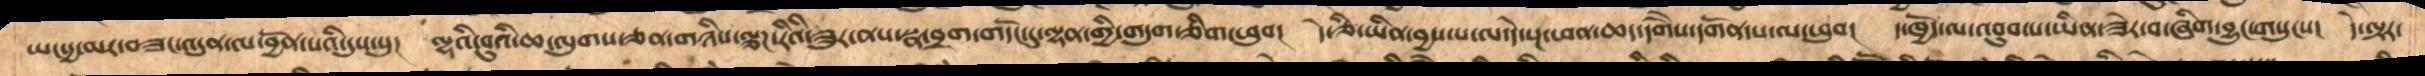ཡང་དྱ་མར་བཟང་འདུན་ལ་བྱོན་པའི་དུས་སུ།   ལྷའི་བུའི་ཆ་ལུགས་ཅན་གཉིས་ལྕཌ་རིའི་ཟུར་ནས་སྣ་བྲག་གདོང་དུ་ལྷན་གྱི་གདུག་ཅིག་ཕུབ།   དེ་ཅི་ཡིན་བྱས་པ་ལ་དེ་སྔ་ཕན་ཆད་དགཻས་དགོན་པ་ལ་ཕུབ།  ད་ཁྱོད་ལ་འབུབ་པ་ཡིན་ཟེར་བ་ཞིག་བྱུང་གསུངས།  དེ་ལྟར་
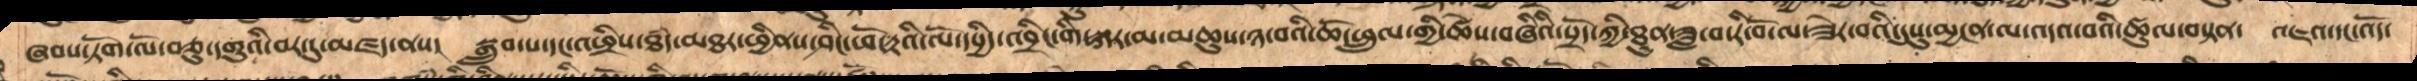ཞབས་ཏོག་ལོ་བཅུ་དགུའི་བར་དུ་མཛད་ནས།   སྒྲུབ་པ་དང་འཕྲིས་ཐཾད་མཐར་ཕྱིནས་ཤིང་ཕོ་རྟའི་ལོ་དཔྱིད་འབྲིང་སྐར་མ་མཆུས་ཉ་བའི་ཆོ་ཕྲུལ་གྱི་ཚེས་བཞིའི་སྲོད་ཀྱི་ཐུན་ཟླ་བ་རི་བོ་ལ་ཟེར་བའི་དུསུ་མྱ་ངན་ལ་འདའ་བའི་ཚུལ་བསྟན།  འཇའ་དང་འོད་
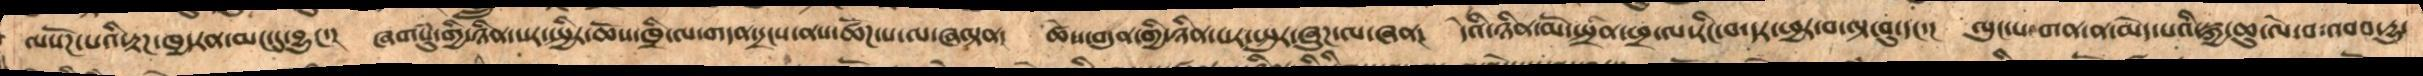ལསོཌ་པའི་རྟཌ་ཁྱདརན་མང་དུ་བྱུང་།  ཞགསུཾ་གྱི་ཉིན་སར་སྤྱིར་ཆོས་ཁྲི་ལ་གདན་དྲངས་ནས་ཚོཌ་པ་ལ་ཞལྟན།  ཚེས་བདུན་གྱི་ཉིན་པར་སྤུར་ཞུཌ་ལ་ཞན།  དེའི་ཉིན་མོ་སྤྲིན་ཕྲ་ལ་རིང་བ་དར་ཕྱར་བ་ལྟ་བུ་དང་།  ལུང་པ་གན་ན་མེད་པའི་སྐྱ་ཆུ་ལེ་བ་འབབ་དྱུ་
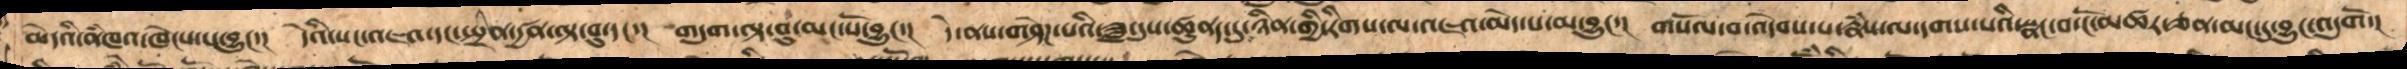མེདའི་ནཾམཁའ་ཁེངས་པ་བྱུང་།  དེའི་སང་འཇའ་དང་སྤྲིན་དྱཚན་ལྟ་བུ་དང་།  གདུག་ལྟ་བུ་མང་པོ་བྱུང་།   དེ་ནས་གཤེཌ་པའི་ཟླ་དུས་ཚུནད་དུ་ཉིན་གྱི་རིགས་ལ་འཇའ་མེད་པ་མ་བྱུང་།   གསོལ་བ་འདེབས་པ་རྣཾས་ལ་དག་པའི་སྣང་བ་ངོ་མཚར་ཅན་མང་དུ་བྱུང་འདུགོ་།
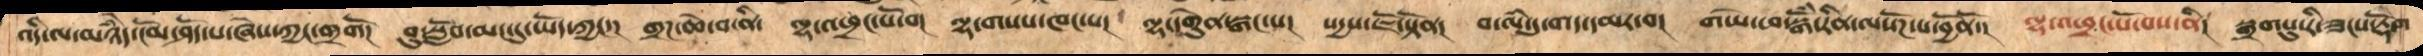འདི་ལ་མཉེཾད་ངོམ་ཤོད་པ་ཞེས་ཀྱང་གྲགོ།   བུ་སློབ་མང་དུ་ཡོད་ཀྱང་།  གྲཌ་ཆེ་བ་ནི།  ལྷ་འཕྲང་པོ་བ།  ལྷ་གསས་ཁང་པ།།   ལྷ་དགེུན་སྒང་པ།   སདྱས་ཇོ་སྟོན།   བ་ལཾ་དུ་གད་དམར་བ།   གཡོ་ཕ་སྒོཾ་རིན་ལསོཌ་པ་བྱོནོ་།   ལྷ་འཕྲང་པོ་བས་ནི།  སྒྲགསུ་རི་ཟངས་རྡོག
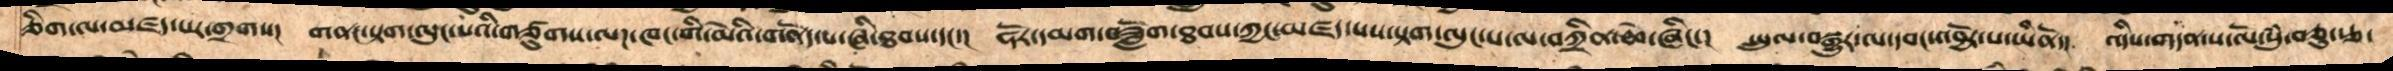ཅིག་ལ་མཛད་པར་གྲགས།  གནང་སྟག་ལུང་པའི་གཙུགས་ལཌ་ཁང་གི་མེའི་གནོད་པ་ཞི་ཐབས་དང་།  ཧོར་དམག་བཟློག་ཐབས་ཀྱང་མཛད་པས་སྟག་ལུང་པ་ལ་བཀྲིན་ཆེ་ཞིང་།  སྤྲུལ་བསྒྱུར་ལ་དབང་འབྱོར་པ་ཡིནོ་།  འདིས་གདན་ས་ལོ་སུཾ་བཅུ་རྩ་
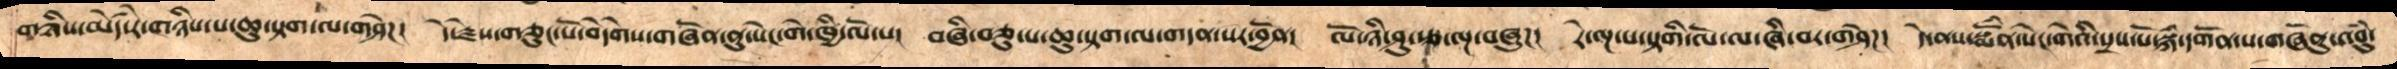གཉིས་མཛེད་རེ་གཉིས་པ་ཆུ་སྟག་ལ་གཤེཌ།  དེ་རྗེས་གཅུང་པོ་བདཻགས་གཞོན་ནུ་སེང་གེ་ཁྱི་ལོ་པ།  བཞི་བཅུ་པ་ཆུ་སྟག་ལ་གདན་སར་བྱོན།  ལོ་ཉི་ཤུ་རྩ་ལྔ་བཞུཌ།  རེ་ལྔ་པ་སྟགི་ལོ་ལ་ཞི་བར་གཤེཌ།  དེ་ནས་སྨོནཾ་སེང་གེའི་སྲས་པོ་སྐཾ་དགོན་པ་གཞོནུ་འབུཾ་
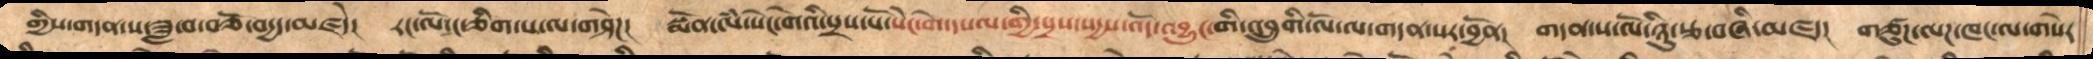གྱིས་གདན་ས་ཟླ་བ་བཅོ་བདྱད་མཛདེ།  རང་ལོ་ང་ཅིག་པ་ལ་གཤེཌ།  སྨོན་ལཾ་སེང་གེའི་སྲས་པོ་སེང་གེ་དཔལ་གྱི་སྲས་སདྱས་འོད་འབྱུང་གི་འབྲུགི་ལོ་ལ་གདན་སར་བྱོན།   གདན་ས་ལོ་ཉིུ་རྩ་བཞི་མཛད།   གཙུག་ལཌ་ཁང་ལ་གསེར
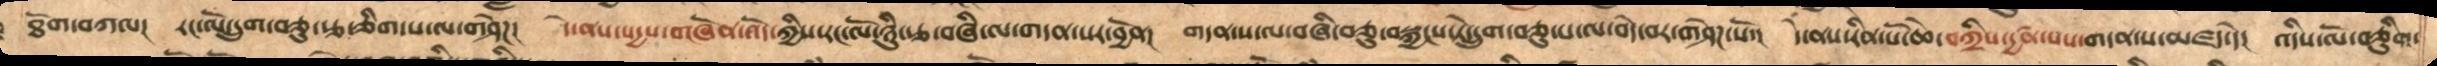ཐོག་བཀལ།  རང་ལོ་དྲུག་བཅུ་རྩ་ཅིག་པ་ལ་གཤེཌ།  དེ་ནས་སདྱས་གཞོན་འོད་ཀྱིས་རང་ལོ་ཉིུ་རྩ་བཞི་ལ་གདན་སར་བྱོན།  གདན་ས་ལོ་བཞི་བཅུ་བསྐྱངས་ཏེ་དྲུག་བཅུ་པ་ལ་གཤེཌ་སོ་།  དེ་ནས་རིན་པོ་ཆེ་བཀྲིས་དྱཚན་པས་གདན་ས་མཛད་དེ། འདིས་ལོ་གཅིུག་
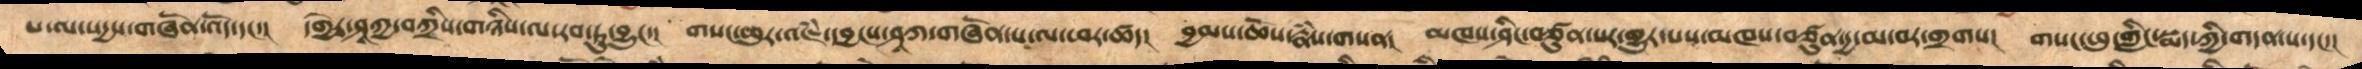པ་ལ་སདྱས་གཞོན་འོད་དང་།   དགྱེར་ཤཱཀྱ་བཀྲིས་གཉིས་ལ་རབ་ཏུ་བྱུང་།  གསང་ཕུར་འཇཾ་དབྱངས་ཤཱཀ་གཞོན་པ་ལ་ཕར་ཚད།  བྱམས་ཆོས་རྣཾས་གསན།   མཁས་ཤིང་བཙུན་པར་གྱུར་པས་མཁས་བཙུན་དྱ་མ་བར་གྲགས།  གསང་ཕུ་གླིང་སྨད་ཀྱི་གདན་ས་དང་།
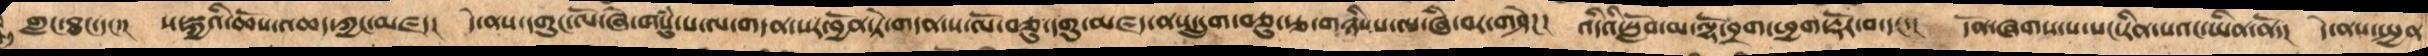གླང་ཐང་དང་།  ས་སྐྱའི་ཆོས་འཆད་ཀྱང་མཛད།  དེ་ནས་དགུང་ལོ་ཞེ་གསུཾ་པ་ལ་གདན་སར་བྱོན་ཏེ་གདན་ས་ལོ་བཅུ་དགུ་མཛད་ནས་དྲུག་བཅུ་རྩ་གཉིས་པ་ལ་ཞི་བར་གཤེཌ།  འདིའི་སློབ་མ་ལྷོ་བྲག་ཕྱག་རྡོར་བ་དང་།  དོན་ཞགས་པ་སང་རིན་པའང་ཡིན་ནོ། དེ་ནས་སྤྱན
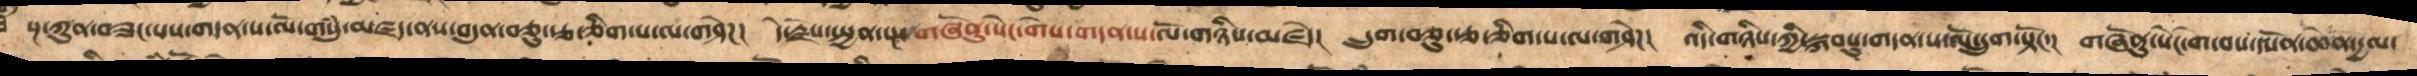སྔ་ཀུན་བཟང་པས་གདན་ས་ལོ་གསུཾ་མཛད་ནས་བདུན་ཅུ་རྩ་ཅིག་པ་ལ་གཤེཌ།།  དེ་རྗེས་སྤྱན་སྔ་གཞོནུ་སེང་གེས་གདན་ས་ལོ་གཉིས་མཛདེ།  དྲུག་བཅུ་རྩ་ཅིག་པ་ལ་གཤེཌ།  འདི་གཉིས་ཀྱི་སྐབསུ་གདན་ས་ལོ་དྲུག་སྟོང་།  གཞོནུ་སེང་གེ་བས་དཔོན་ཆེན་དྱལ་
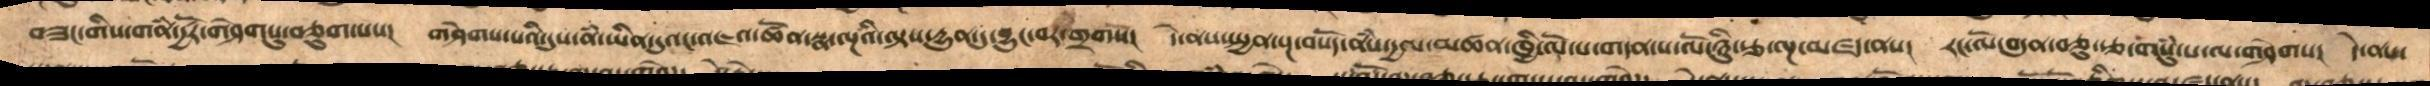བཟང་གིས་གནཾ་དྱཚོར་གཤེགསུ་བཅུག་པས།  གཤེགས་པའི་དུས་ནཾ་ཡིན་དུའང་འཇའ་ཚོན་སྣ་ལྔའི་ལྟས་དྱུན་དུ་བྱུང་བར་གྲགསོ།  དེ་ནས་སྤྱན་སྔ་བསོད་ནཾས་དྱལ་མཚན་ཁྱི་ལོ་པ་གདན་ས་ལོ་ཉིུརྩ་ལྔ་མཛད་ནས།  རང་ལོ་བདུན་བཅུ་རྩ་གསུཾ་པ་ལ་གཤེགས།  དེ་ནས་
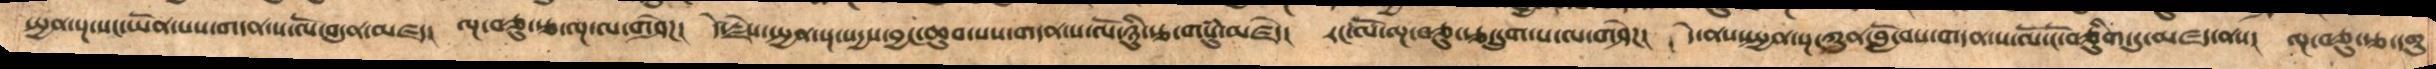སྤྱན་སྔ་སང་ཡོན་པས་གདན་ས་ལོ་བདུན་མཛད།  ལྔ་བཅུ་རྩ་ལྔ་ལ་གཤེཌ།  དེ་རྗེས་སྤྱན་སྔ་སདྱས་བྱང་ཆུབ་པས་གདན་ས་ལོ་ཉིུ་རྩ་གསུཾ་མཛདེ།  རང་ལོ་ལྔ་བཅུ་རྩ་དྲུག་པ་ལ་གཤེཌ།  དེ་ནས་སྤྱན་སྔ་ཀུན་བློ་བས་གདན་ས་ལོ་ངོ་བཅིུག་དུ་མཛད་ནས།  ལྔ་བཅུ་རྩ་དགུ
